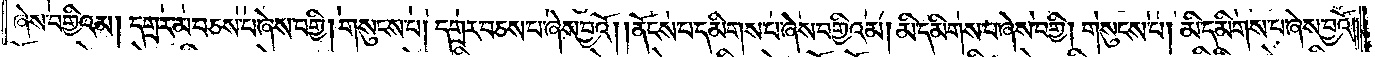ཞེས་བགྱིའམ། དགྲར་མ་བཅས་པ་ཞེས་བགྱི། གསུངས་པ། དགྲར་བཅས་པ་ཞེས་བྱའོ། །ནོངས་པ་དམིགས་པ་ཞེས་བགྱིའམ། མི་དམིགས་པ་ཞེས་བགྱི། གསུངས་པ། མི་དམིགས་པ་ཞེས་བྱའོ༎
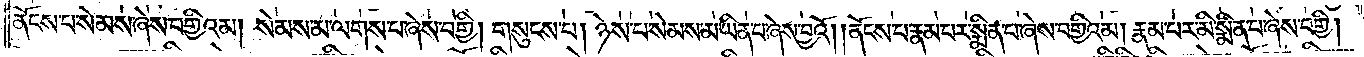ནོངས་པ་སེམས་ཞེས་བགྱིའམ། སེམས་མ་ལགས་པ་ཞེས་བགྱི། གསུངས་པ། ཉེས་པ་སེམས་མ་ཡིན་པ་ཞེས་བྱའོ། །ནོངས་པ་རྣམ་པར་སྨིན་པ་ཞེས་བགྱིའམ། རྣམ་པར་མི་སྨིན་པ་ཞེས་བགྱི་།
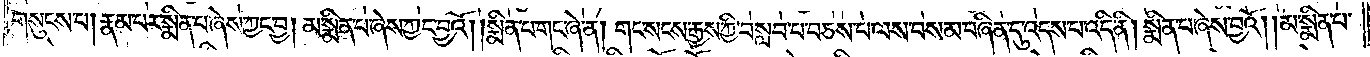གསུངས་པ། རྣམ་པར་སྨིན་པ་ཞེས་ཀྱང་བྱ། མ་སྨིན་པ་ཞེས་ཀྱང་བྱའོ། །སྨིན་པ་གང་ཞེ་ན། གང་སངས་རྒྱས་ཀྱི་བསླབ་པ་བཅས་པ་ལས་བསམ་བཞིན་དུ་འདས་པ་འདི་ནི། སྨིན་པ་ཞེས་བྱའོ། །མ་སྨིན་པ་
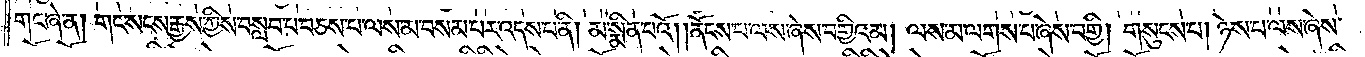གང་ཞེ་ན། གང་སངས་རྒྱས་ཀྱིས་བསླབ་པ་བཅས་པ་ལས་མ་བསམ་པར་འདས་པ་ནི། མ་སྨིན་པའོ། །ནོངས་པ་ལས་ཞེས་བགྱིའམ། ལས་མ་ལགས་པ་ཞེས་བགྱི། གསུངས་པ། ཉེས་པ་ལས་ཞེས་
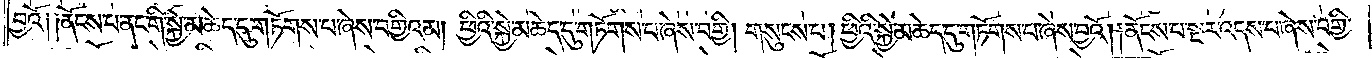བྱའོ༑ ༑ནོངས་པ་ནང་གི་སྐྱེ་མཆེད་དུ་གཏོགས་པ་ཞེས་བགྱིའམ། ཕྱིའི་སྐྱེ་མཆེད་དུ་གཏོགས་པ་ཞེས་བགྱི། གསུངས་པ། ཕྱིའི་སྐྱེ་མཆེད་དུ་གཏོགས་པ་ཞེས་བྱའོ། །ནོངས་པ་སྔར་འདས་པ་ཞེས་བགྱི་
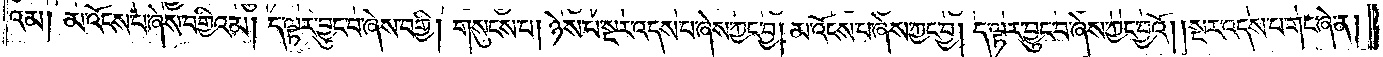འམ། མ་འོངས་པ་ཞེས་བགྱིའམ། ད་ལྟར་བྱུང་བ་ཞེས་བགྱི། གསུངས་པ། ཉེས་པ་སྔར་འདས་པ་ཞེས་ཀྱང་བྱ། མ་འོངས་པ་ཞེས་ཀྱང་བྱ། ད་ལྟར་བྱུང་བ་ཞེས་ཀྱང་བྱའོ། །སྔར་འདས་པ་གང་ཞེ་ན།
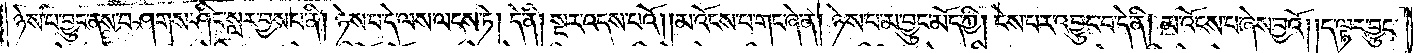ཉེས་པ་བྱུང་ནས་བཤགས་ཤིང་སླར་བྱས་པ་ནི། ཉེས་པ་དེ་ལས་ལངས་ཏེ། དེ་ནི། སྔར་འདས་པའོ། །མ་འོངས་པ་གང་ཞེ་ན། ཉེས་པ་མ་བྱུང་མོད་ཀྱི། ངེས་པར་འབྱུང་བ་དེ་ནི། མ་འོངས་པ་ཞེས་བྱའོ། །ད་ལྟར་བྱུང་
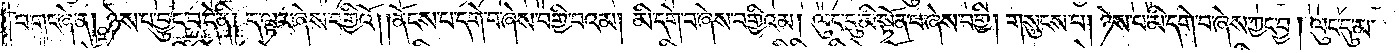བ་གང་ཞེ་ན། ཉེས་པ་བྱུང་བ་དེ་ནི། ད་ལྟར་ཞེས་བགྱིའོ། །ནོངས་པ་དགེ་བ་ཞེས་བགྱི་བའམ། མི་དགེ་བ་ཞེས་བགྱིའམ། ལུང་དུ་མི་སྟོན་པ་ཞེས་བགྱི། གསུངས་པ། ཉེས་པ་མི་དགེ་བ་ཞེས་ཀྱང་བྱ། ལུང་དུ་མ་
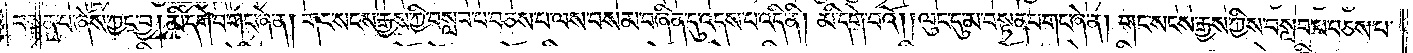བསྟན་པ་ཞེས་ཀྱང་བྱ། མི་དགེ་བ་གང་ཞེ་ན། གང་སངས་རྒྱས་ཀྱི་བསླབ་པ་བཅས་པ་ལས་བསམ་བཞིན་དུ་འདས་པ་འདི་ནི། མི་དགེ་བའོ། །ལུང་དུ་མ་བསྟན་པ་གང་ཞེ་ན། གང་སངས་རྒྱས་ཀྱིས་བསླབ་པ་བཅས་པ་
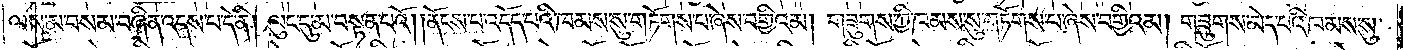ལས་མ་བསམ་བཞིན་འདས་པ་དེ་ནི། ལུང་དུ་མ་བསྟན་པའོ། །ནོངས་པ་འདོད་པའི་ཁམས་སུ་གཏོགས་པ་ཞེས་བགྱིའམ། གཟུགས་ཀྱི་ཁམས་སུ་གཏོགས་པ་ཞེས་བགྱིའམ། གཟུགས་མེད་པའི་ཁམས་སུ་
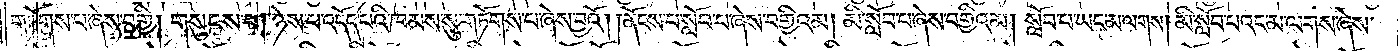གཏོགས་པ་ཞེས་བགྱི། གསུངས་པ། ཉེས་པ་འདོད་པའི་ཁམས་སུ་གཏོགས་པ་ཞེས་བྱའོ། །ནོངས་པ་སློབ་པ་ཞེས་བགྱིའམ། མི་སློབ་པ་ཞེས་བགྱིའམ། སློབ་པ་ཡང་མ་ལགས། མི་སློབ་པའང་མ་ལགས་ཞེས་
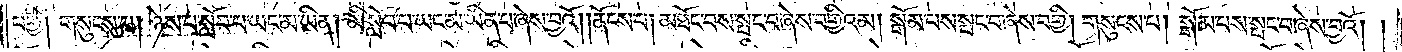བགྱི། གསུངས་པ། ཉེས་པ་སློབ་པ་ཡང་མ་ཡིན། མི་སློབ་པ་ཡང་མ་ཡིན་པ་ཞེས་བྱའོ། །ནོངས་པ། མཐོང་བས་སྤང་བ་ཞེས་བགྱིའམ། སྒོམ་པས་སྤང་བ་ཞེས་བགྱི། གསུངས་པ། སྒོམ་པས་སྤང་བ་ཞེས་བྱའོ། །
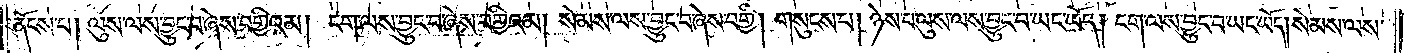ནོངས་པ། ལུས་ལས་བྱུང་བ་ཞེས་བགྱིའམ། ངག་ལས་བྱུང་བ་ཞེས་བགྱིའམ། སེམས་ལས་བྱུང་བ་ཞེས་བགྱི། གསུངས་པ། ཉེས་པ་ལུས་ལས་བྱུང་བ་ཡང་ཡོད། ངག་ལས་བྱུང་བ་ཡང་ཡོད། སེམས་ལས་
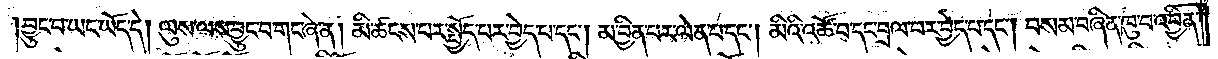བྱུང་བ་ཡང་ཡོད་དེ། ལུས་ལས་བྱུང་བ་གང་ཞེ་ན། མི་ཚངས་པར་སྤྱོད་པར་བྱེད་པ་དང༌། མ་བྱིན་པར་ལེན་པ་དང༌། མིའི་འཚོ་བ་དང་བྲལ་བར་བྱེད་པ་དང༌། བསམ་བཞིན་ཁུ་བར་འབྱིན་
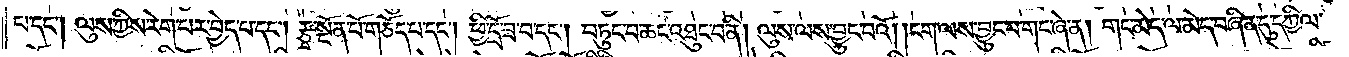པ་དང༌། ལུས་ཀྱིས་རེག་པར་བྱེད་པ་དང༌། རྩྭ་སྔོན་པོ་གཅོད་པ་དང༌། ཕྱི་དྲོ་ཟ་བ་དང༌། བཏུང་བ་ཆང་འཐུང་བ་ནི། ལུས་ལས་བྱུང་བའོ། །ངག་ལས་བྱུང་བ་གང་ཞེ་ན། གང་མེད་ལ་མེད་བཞིན་དུ་དཀྱིལ་
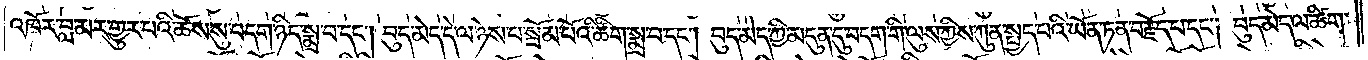འཁོར་བླ་མར་གྱུར་པའི་ཆོས་སུ་བདག་ཉིད་སྨྲ་བ་དང༌། བུད་མེད་དེ་ལ་ཉེས་པ་སྦོམ་པོའི་ཚིག་སྨྲ་བ་དང༌། བུད་མེད་ཀྱི་མདུན་དུ་བདག་གི་ལུས་ཀྱིས་ཀུན་སྤྱད་པའི་ཡོན་ཏན་བརྗོད་པ་དང༌། བུད་མེད་ལ་ཚིག་
